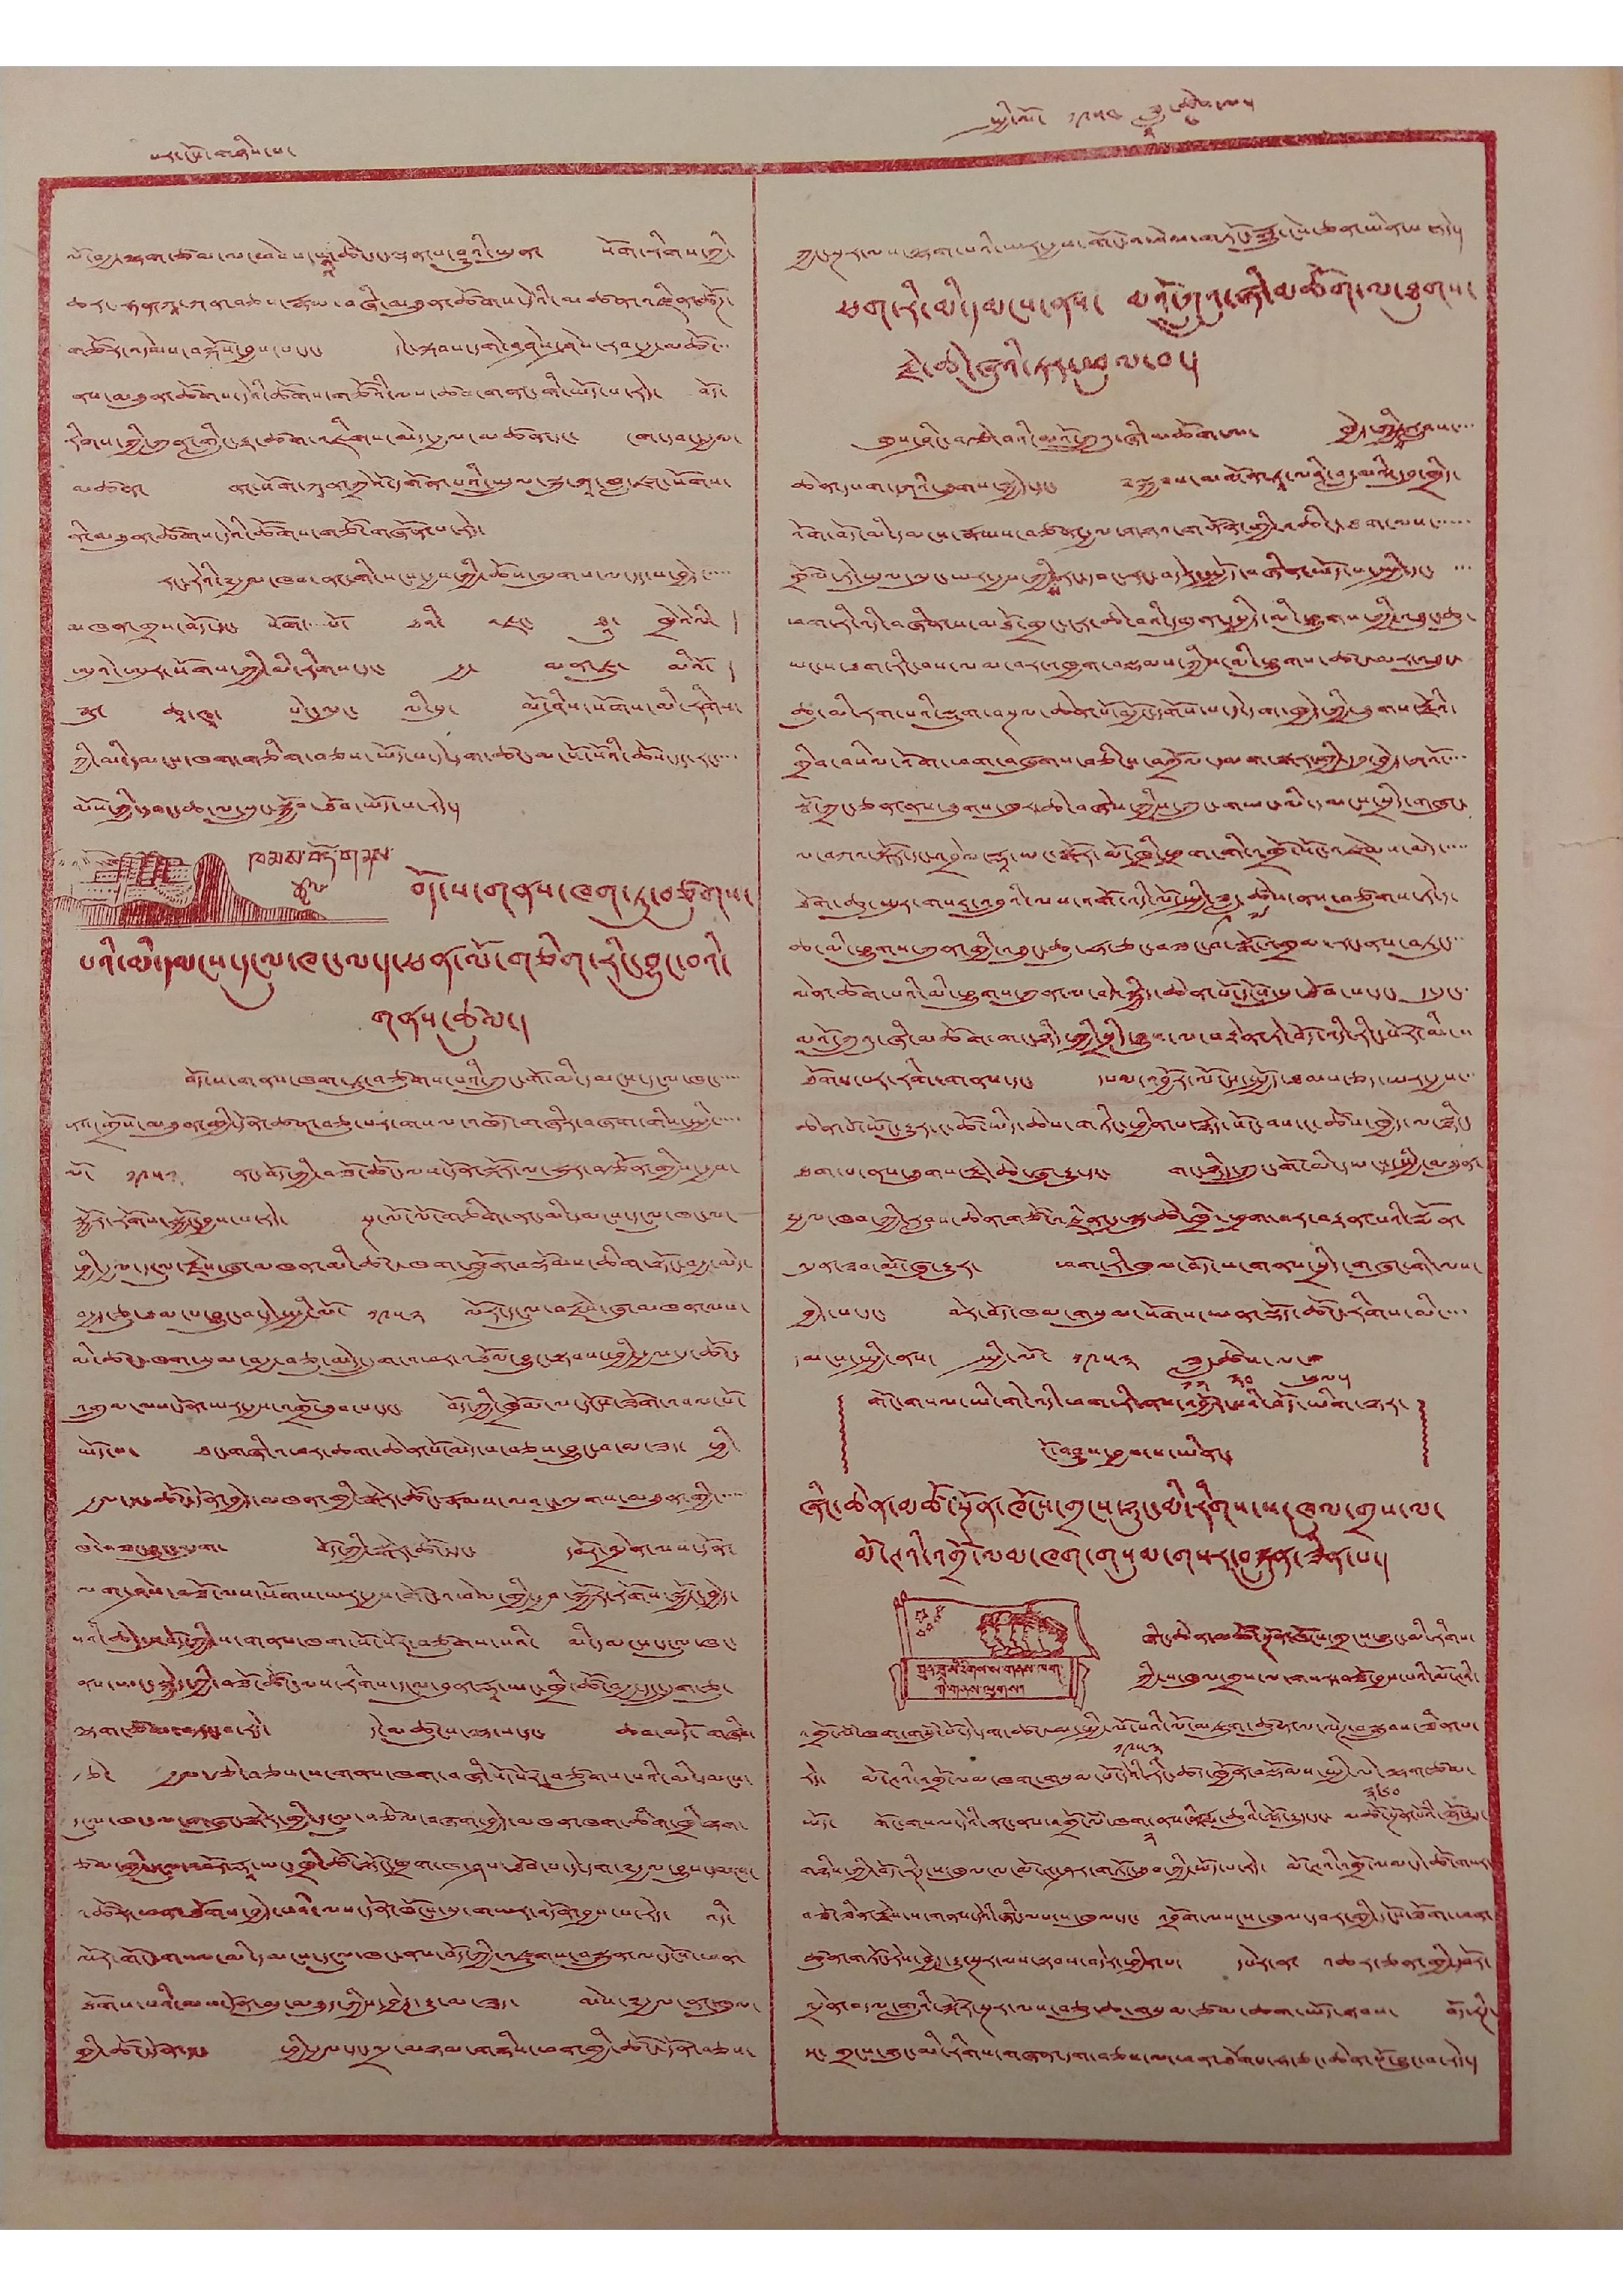པར་ངོས་གཉིས་པ་ སྤྱི་ལོ་ ༡༩༥༤ ཟླ་
༢
ཚེས་
༦
ལ་།
ལོ་བརྒྱ་ལྷག་ཙམ་ལ་ཕེབས་པ
འི
་ཚེ་དང་ལྡན་པ་ཤུའི་ཡུན་ སོག་རིགས་ཀྱི་
ཆར་ཧན་ཀཱ་ཀན་བཅས་རྣམ་བཞི་མཐུན་ཚོགས་དེའི་མཚན་འཛིན་ཚོཊ་
གཙོར་འདེབས་བསྐོས་བྱས་པ་དང་ དེང་སྐབས་དགེ་བཤེས་ཤེས་རབ་རྒྱ་མཚོ་་་
ནས་མཐུན་ཚོགས་དེའི་ཚོགས་གཙོའི་ལས་ཚབ་གནང་གི་ཡོད་པ་རེད་ བོད་
རིགས་ཀྱི་ཀུན་གླིང་རྟ་ཚག་འཇིག་མེད་རྒྱལ་མཚན་དང་ ངག་དབང་རྒྱལ་
མཚན་ ནང་སོག་ཀཱན་ཀྲེའོ་དགོན་པའི་སྤྲུལ་སྐུ་ཀཱ་བླ་ཛང་སོགས་
ནི་མཐུན་ཚོགས་དེའི་ཚོགས་གཙོ་གཞོན་པ་རེད་
རང་རེའི་༸རྒྱལ་ཁབ་ནང་གི་སངས་རྒྱས་ཀྱི་ཆོས་ལུགས་ལ་དད་པ་བྱེད་་་་་
མཁན་གྲས་བོད་དང་ སོག་་་་པོ་ ཐའི་ འཇང་ ཐཱུ་ ཁྲེའེ་ལི་ །
ཨུའེ་ཨུར་སོགས་ཀྱི་མི་རིགས་དང་ རྒྱ་ མན་ཇུ་ མིའོ་ །
རྣུ་ ཆཱ་ཝཱ་ པེང་ལུང་ ལི་པུ་ མོ་ཤེས་སོགས་མི་རིགས་
ཀྱི་མི་དམངས་ཁག་གཅིག་བཅས་ཡོད་པ་དེ་དག་ཚང་མ་སོ་སོའི་ཆོས་དད་རང་་་་
མོས་ཀྱི་དབང་ཆ་ལ་སྲུང་སྐྱོབ་ཐོབ་ཡོདཔ་རེད་།
ཁམས་བོད་གནས་
ཚུལ་
བོད་ས་གནས་ཁག་ཏུ་བཙུགས་
པའི་མི་དམངས་དངུལ་ཁང་ལ་ད་ཕན་ལོ་གཅིག་རིང་བྱུང་བའི་
གནས་ཚུལ་།
བོད་ས་གནས་ཁག་ཏུ་བཙུགས་པའི་ཀྲུང་གོ་མི་དམངས་དངུལ་ཁང་་་་་
ནས་གྲོས་མཐུན་གྱི་དོན་ཚན་བཅུ་པར་གསལ་འཁོད་གཞིར་བཞག་གིས་སྤྱི་་་་་
ལོ་ ༡༩༥༡ ནང་བོད་ཀྱི་བཟོ་ཚོང་ལས་དོན་སྐོར་ལ་ཧུར་བརྩོན་གྱིས་རྒྱབ་
སྐྱོར་རོགས་སྐྱོང་བྱས་པ་རེད་ སྔ་ལོ་ལོ་གཅིག་ནང་མི་དམངས་དངུལ་ཁང་ལ་
ཕྱི་རྒྱལ་དངུལ་རྗེས་ཞུ་མཁན་མི་ཚང་ཁག་ཁྱོན་བསྡོམས་ཆིག་སྟོང་བརྒྱ་མེད་
བརྒྱད་ཅུ་ཐམ་པ་བྱུང་བ་དེ་སྤྱི་ལོ་ ༡༩༥༢ ལོར་དངུལ་བརྗེས་ཞུ་མཁན་ལས་
མི་ཚང་ཁག་སུམ་བརྒྱ་བཅུ་མེད་དྲུག་འཕར་འཐོལ་བྱུང་སྟབས་ཕྱི་རྒྱལ་དུ་ཚོང་
འགྲུལ་ལས་དོན་ཡར་རྒྱས་འགྲོ་ཐུབ་པ་དང་ བོད་ཀྱི་ཁྲོམ་ལ་དངོས་ཟོག་འབལ་པོ་
ཡོད་པ་ ཐང་གཞི་འཕར་ཆག་ཆེན་པོ་མེད་པ་བཅས་བྱུང་བ་མ་ཟད་ ཕྱི་
རྒྱལ་མཚོང་དོན་བྱེད་མཁན་གྱི་སྒེར་ཚོང་རྣམས་ལའང་ལུགས་མཐུན་གྱི་་་་་
ཁེ་བཟང་བྱུང་འདུག་ བོད་ཀྱི་སྒེར་ཚོང་དང་ དབོར་འདྲེན་ལས་དོན་
ལག་ཤེས་བཟོ་ལས་སོགས་ཡར་རྒྱས་གོང་འཕེལ་གྱི་རྒྱབ་སྐྱོར་རོགས་སྐྱོང་བྱེད་
པའི་ཆེད་དུ་བོད་ཀྱི་ས་གནས་ཁག་སོ་སོར་བཙུགས་པའི་ མི་དམངས་དངུལ་ཁང་
ནས་ཡང་སྐྱེད་ཀྱི་བཟོ་ཚོང་ལས་རིགས་དངུལ་བུན་རྡཱ་ཡང་ཁྲི་ཚོ་བརྒྱ་དང་དྲུག་ཅུ་
ལྷག་ཙམ་བཏང་པ་རེད་ དེ་མཚུངས་ལྷ་ས་དང་ ཆབ་མདོ་ གཞིས་
རྩེ་ རྒྱལ་རྩེ་བཅས་ས་གནས་ཁག་བཞི་སོ་སོར་བཙུགས་པའི་མི་དམངས་
དངུལ་ཁང་ལ་གཞུང་སྒེར་གྱི་དངུལ་བཅོལ་བཞག་བྱེད་མཁན་ཁག་ཆིག་ཁྲི་ལྷག་
ཙམ་གྱི་དངུལ་འབོར་རྡཱ་ཡང་ཁྲི་ཚོ་སྟོང་ཕྲག་ཁ་ཤས་ཐོབ་པ་དེ་དག་༸རྒྱལ་བྱུས་དམངས་
འཚོར་ཕན་ཐོགས་བྱེད་པའི་ལས་དོན་ཁོང་སུ་གཡར་འདོན་བྱསཔ་རེད་ འདི་
ལོར་གོང་གསལ་མི་དམངས་དངུལ་ཁང་ནས་བོད་ཀྱི་འཛུགས་བསྐྲུན་ལ་དངོས་ཕན་
ཐོགས་པའི་ལས་དོན་མུ་མཐུད་ཀྱིས་བྱེད་རྒྱུ་མ་ཟད་ མེས་༸རྒྱལ་ནང་ཁུལ་
གྱི་ཚོང་དོན་དང་ ཕྱི་རྒྱལ་དང་འདྲ་མཉམ་གཉིས་ཕན་གྱི་ཚོང་དོན་བཅས་
ཀྱང་སྔར་ལས་ལྷག་པའི་ཡར་རྒྱས་གོང་འཕེལ་གཏོང་རྒྱུ་ངེས་ཅན་ཡིན་པ་རེད་།
ཕག་རི་མི་དམངས་ནས་ མའོ་ཀྲུའུ་ཞི་མཆོག་ལ་ཐུགས་
རྗེ་ཆེ་ཞུའི་ཏར་ཕུལ་བ་།
གུས་ཤིང་བརྩེ་བའི་མའོ་ཀྲུའུ་ཞི་མཆོག་ལ་ ཁྱེད་ཀྱིས་རླབས་་་་
ཆེན་དཔག་དཀའི་ཐུགས་སྐྱེད་དང་ ༸སྐྱབས་མགོན་ཏཱ་ལའི་བླ་མའི་དབུ་ཁྲིད་
འོག་བོད་མི་དམངས་རྣམས་བཙན་རྒྱལ་གཉའ་གནོན་གྱི་འཆིང་ཐག་ལས་་་་་་
གྲོལ་ཏེ་ཡུལ་ལུང་ཡར་རྒྱས་ཀྱི
ས
རང་དབང་རང་བདེར་སྤྱོད་བཞིན་ཡོད་པ་སྤྱི་དང་ ་་་
ཕག་རི་འདི་བཞིན་ས་མཐོ་གྲང་ངར་ཆེ་བའི་དགུན་དཔྱིད་མི་ཕྱུགས་ཀྱི་འཐུང་ཆུ་
ཡང་ས་ཐག་རིང་བས་ལམ་བར་འཁྱག་བསྡམས་ཀྱིས་མི་ཕྱུགས་ཚང་མར་འཐུང་
ཆུ་མི་རག་པའི་སྡུག་བསྔལ་ཆེན་པོ་མྱོང་དགོས་པ་དེ་དག་ཁྱེད་ཀྱི་ཐུགས་རྗེའི་
གྲིབ་བསིལ་འོག་ཕག་བཞུགས་བཅིངས་བཀྲོལ་དམག་སྒར་གྱི་དའུང་བྱེད་ཀའོ་་་་
སྦོ་ཀྲང་ཅན་ནས་ཐུགས་ཁུར་ཆེ་བཞེས་ཀྱིས་ཀྲུང་གཡང་མི་དམངས་སྲིད་གཞུང་
ལ་བཀའ་སྐོར་དང་འབྲེལ་རྡཱ་ཡང་སྒོར་མོ་ཁྲི་ཕྲག་གི་འགྲོ་སོང་འཛེམས་མེད་་་་་
ཐོག་ཆུ་ཡུར་གསར་འབྲུའི་ལས་འགོ་འདི་ལོ་སྤྱི་ཟླ་
༡
ཚེས་
༧
ནས་བཙུགས་ཏེ་ད་
ཆ་མི་ཕྱུགས་ཀུན་གྱི་འཐུང་ཆུ་ཧ་ཅང་བཟང་བ་སྒོ་འགྲམ་རང་ནས་བཏུང་་་
ལེན་ཆོག་པའི་མི་ཕྱུགས་ཀུན་ལ་བདེ་སྐྱིད་ཆེན་པོ་དངོས་སུ་ཐོབ་པ་དང་ ད་དུང་
མའོ་ཀྲུའུ་ཞི་མཆོག་གང་ཉིད་གྱི་སྲིད་བྱུས་ལ་བརྟེན་ཏེ་བོད་འདི་རིང་པོར་མིང་་
ཐོགས་པར་རིག་གནས་དང་ དཔལ་འབྱོར་ལོངས་སྤྱོད་ཐམས་ཅད་ཡར་རྒྱས་་་
ཆེན་པོ་ཡོང་རྒྱུར་ང་ཚོ་ཡིད་ཆེས་གཏིང་ཕྱིན་པ་རྙེད་སོང་བས་ང་ཚོས་ཁྱེད་ལ་སྙིང་
ཐག་པ་ནས་ཐུགས་རྗེ་ཆེ་ཞུ་རྒྱུ་དང་ གང་ཉིད་ཀྲུང་གོ་མི་དམངས་སྤྱི་མཐུན་
༸རྒྱལ་ཁབ་ཀྱི་རླབས་ཆེན་གཙོ་འཛིན་དུ་སྐུ་ཚེ་ཁྲི་ཕྲག་བར་བརྟན་པའི་སྨོན་
འདུན་ཟབ་མོ་ཞུ་རྒྱུར་ ཕག་རི་ཁུལ་བོད་ས་གནས་སྲིད་གཞུང་གི་ལས་
བྱེད་པ་དང་ བེར་བོད་ཁམ་གསུམ་སོགས་ཡན་སྡོད་ཚོང་རིགས་མི་་་་
དམངས་སྤྱི་ནས་ སྤྱི་ལོ་ ༡༩༥༣ ཟླ་
༡༢
ཚེས་
༣༠
ལ་
ཕུལ་།
གོང་གསལ་ཡི་གེ་འདི་ཕག་རི་ནས་འབྱོར་པའི་བོད་ཡིག་ལྟར་
ངོ་བཤུས་བྱས་པ་ཡིན་།
ཞིང་ཆེན་མཚོ་སྔོན་ཁོངས་གྲངས་ཉུང་མི་རིགས་ས་ཁུལ་གྲས་ལ་
མོ་ཊའི་འགྲོ་ལམ་ཁག་གསུམ་གསར་བསྐྲུན་ཟིན་པ་།
སྤུན་ཟླ་སི་རིགས་ས་གནས་ཁག་
གི་གནས་ལུགས་།
ཞིང་ཆེན་མཚོ་སྔོན་ཁོངས་གྲངས་ཉུང་མི་རིགས་
ཀྱི་ས་ཁུལ་གྲས་ལ་གསར་བཟོ་བྱས་པའི་མོ་ཊའི་
འགྲོ་ལཾ་ཁག་གསུཾ་པོ་དེ་དག་ཚང་མ་སྤྱི་ལོ་
༡༩༥༣
པའི་ལོ་མཇུག་ཚུན་ལ་ལེཊ་བསྒྲུབས་ཟིན་པ་
རེད་ མོ་ཊའི་འགྲོ་ལམ་ཁག་གསུམ་པོ་དེའི་རིང་ཚད་ཁྱོན་བསྡོམས་སྤྱི་ལེ་
༣༦༠
ལྷག་ཙམ་
ཡོད་ གོང་གསལ་དེའི་ནང་ནས་འགྲོ་ལཾ་ཁག་
༢
ནས་ནི་རྨ་ཆུའི་ལྷོ་རྒྱུད་དང་ མཚོ་སྔོན་པོའི་ལྷོ་རྒྱུད་
གཉིས་ཀྱི་བོད་རིཊ་ས་ཁུལ་ལ་མོ་ཊ་ཤར་གཏོང་ཐུབ་ཀྱི་ཡོད་པ་རེད་ མོ་ཊའི་འགྲོ་ལམ་དེ་ཚོ་གསར་
བཟོ་ཟིན་རྗེས་ས་གནས་དེའི་ཞིང་ལས་ས་ཁུལ་དང་ འབྲོག་ལས་ས་ཁུལ་དབར་གྱི་དངོས་ཟོག་ཕན་
ཚུན་གཏོང་རེས་བྱེད་རྒྱུ་སྔར་ལས་སྟབས་བདེར་ཕྱིན་པ་ དཔེར་ན་ འཆར་ཅན་གྱི་དབོར་
འདྲེན་བ་ལ་གླའི་སྐོར་སྔར་ལས་བཅུ་ཆ་གསུམ་ཙམ་ཆག་ཡོད་སྟབས་ བོད་རིཊ་
དང་ གྲངས་ཉུང་མི་རིགས་གཞན་དག་བཅས་ལ་ཕན་ཐོགས་ཧ་ཅང་ཆེན་པོ་བྱུང་བ་རེད་།
